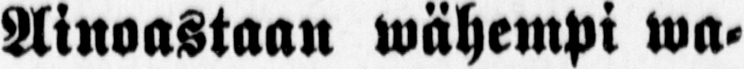Ainoastaan wähempi wa-
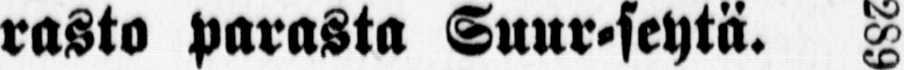rasto parasta Suur-seytä. 289
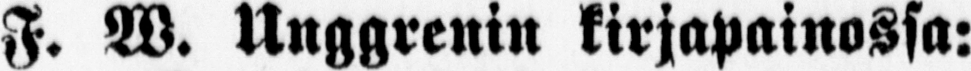F. W. Unggrenin kirjapainossa:
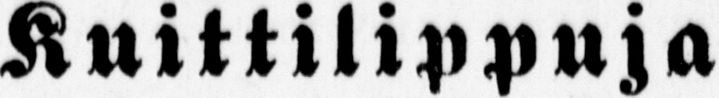Kuittilippuja
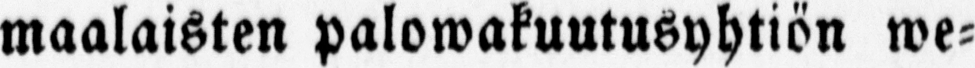maalaisten palowakuutusyhtiön we-
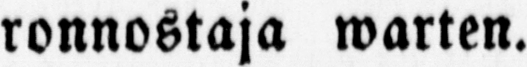ronnostaja warten.
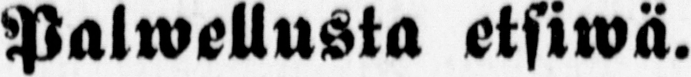Palwellusta etsiwä.
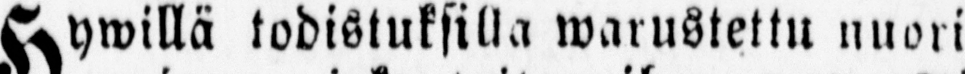Hywillä todistuksilla warustettu nuori
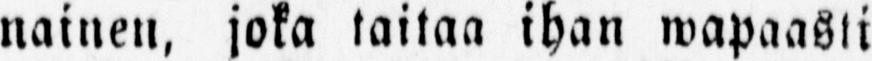nainen, joka taitaa ihan wapaasti
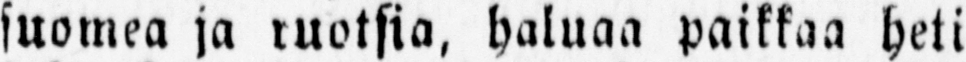suomea ja ruotsia, haluaa paikkaa heti
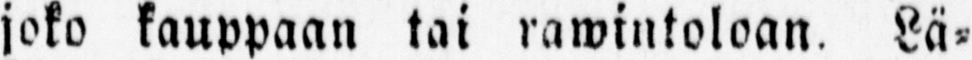joko kauppaan tai rawintolaan. Lä-
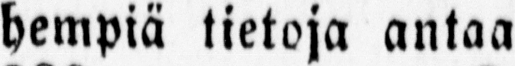hempiä tietoja antaa
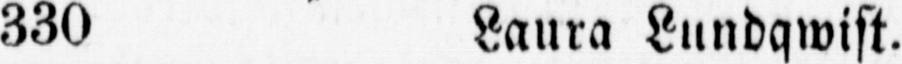330 Laura Lundqwist.
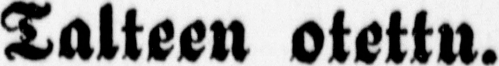Talteen otettu.
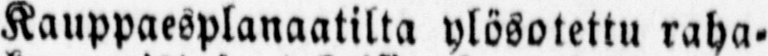Kauppaesplanaatilta ylösotettu raha-
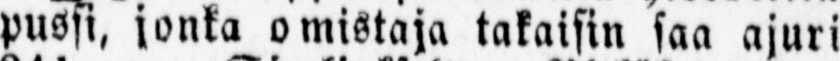pussi, jonka omistaja takaisin saa ajuri
